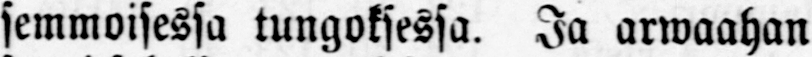semmoisessa tungoksessa. Ja arwashan
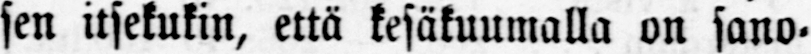sen itsekukin, että kesäkuumalla on sano-
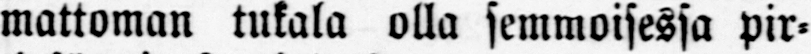mattoman tukala olla semmoisessa pir-
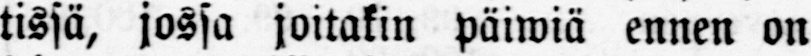tissä, jossa joitakin päiwiä ennen on
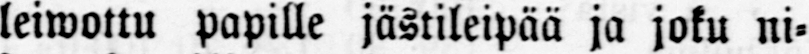leiwottu papille jästileipää ja joku ni-
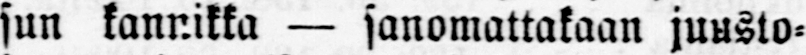sun kannikka — sanomattakaan juusto-
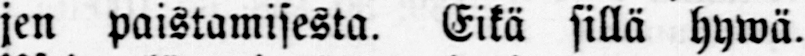jen paistamisesta. Eikä sillä hywä.
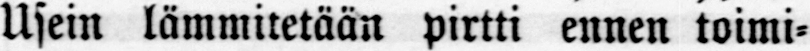Usein lämmitetään pirtti ennen toimi-
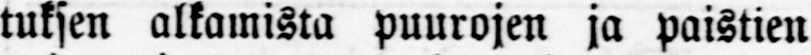tuksen alkamista puurojen ja paistien
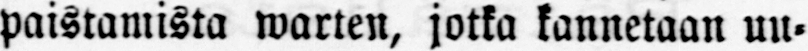paistamista warten, jotka kannetaan uu-
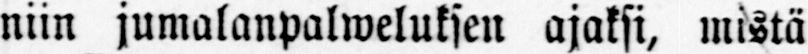niin jumalanpalweluksen ajaksi, mistä
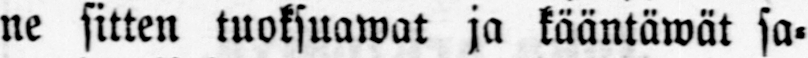ne sitten tuoksuawat ja kääntäwät sa-
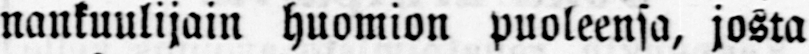nankuulijain huomion puoleensa, josta
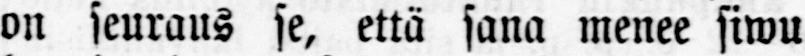on seuraus se, että sana menee siwu
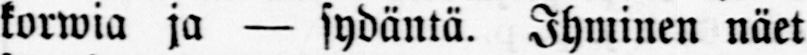korwia ja — sydäntä. Ihminen näet
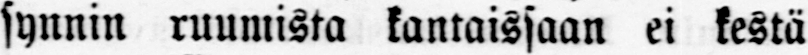synnin ruumista kantaissaan ei kestä
